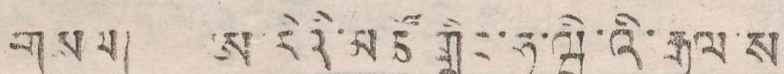གསལ། ཨ་རིའི་མཚོ་གླིང་ཧ་ཝི་འི་རྒྱལ་ས
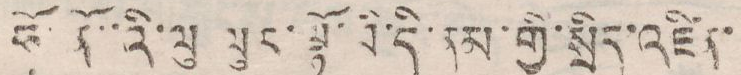ཧོ་ནོ་་འི་ལུ ལུར་ལྷོ་བི་དི་ནམ་གྱི་སྲིད་འཛིན་
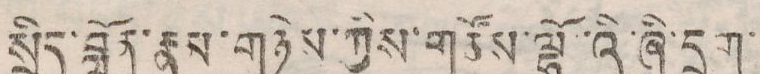སྲིད་བློན་རྣམ་གཉིས་ཀྱིས་གཙོས་ལྷོའི་ཞི་དྲག་
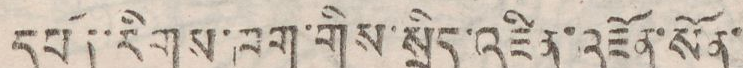དཔོན་རིགས་ཁག་གིས་སྲིད་འཛིན་འཇོན་སོན་
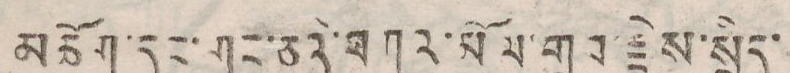མཆོག་དང་གང་ཅིའི་བཀའ་མོལ་གྲུབ་རྗེས་སྲིད་
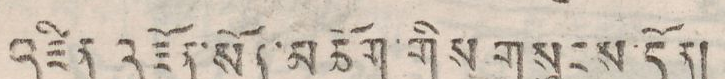འཛིན འཇོན་སོན་མཆོག་གིས གསུངས་དོན།།
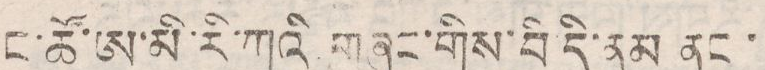ང་ཚོ་ཨ་མི་རི་ཀའི གཞུང་གིས་བི དི་ནམ ནང་
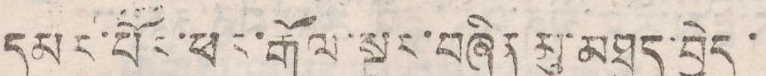དམར་པོར་ཕར་རྒོལ་སྔར་བཞིན མུ་མཐུད་བྱེད་
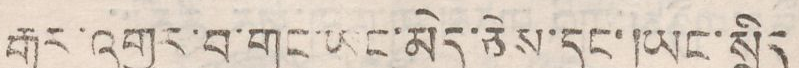རྒྱུར་འགྱུར་བ་གང་ཡང་མེད་ཅེས་དང་།ཡང་སྲིད
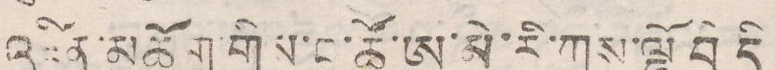འཛིན་མཆོག་གིས་ང་ཚོ་ཨ་མི་རི་ཀས་ལྷོ བི དི
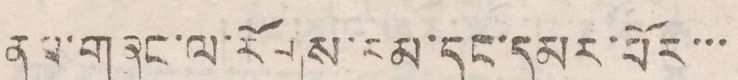ནམ་གཞུང་ལ་རོགས་རམ་དང་དམར་པོར་་་
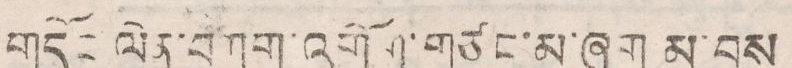གདོང ལེན་བཀག་འགོག་གཙང་མ་ཞག མ་བྱས
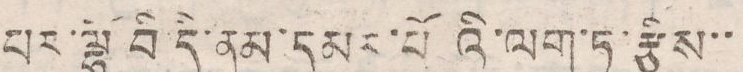པར་ལྷོ བི དི་ནམ་དམར་པོའི་ལག་ཏུ་རྩིས་་
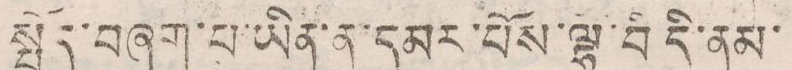སྤྲོད་བཞག་པ་ཡིན་ན་དམར་པོས་ལྟ་བི དི་ནམ་
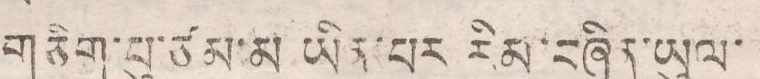གཅིག་པུ་ཙམ་མ ཡིན་པར རིམ་བཞིན་ཡུལ་
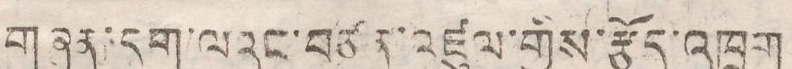གཞན་དག་ལའང་བཙན་འཛུལ་གྱིས་རྩོད་འཁྲུག
